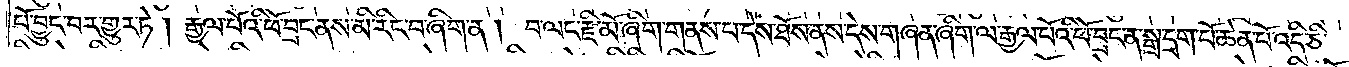པོ་བྱུང་བར་གྱུར་ཏེ། རྒྱལ་པོའི་ཕོ་བྲང་ནས་མི་རིང་བ་ཞིག་ན། བ་ལང་རྫི་མོ་ཞིག་གནས་པ་དེས་ཐོས་ནས་དེས་གཞན་ཞིག་ལ་རྒྱལ་པོའི་ཕོ་བྲང་ན་སྒྲ་དྲག་པོ་ཆེན་པོ་འདི་ཅི་
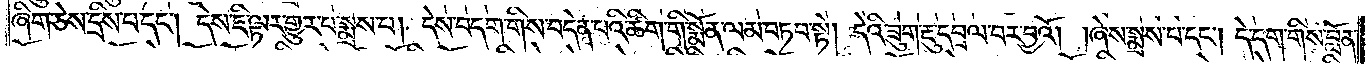ཞིག་ཅེས་དྲིས་པ་དང༌། དེས་ཇི་ལྟར་གྱུར་པ་སྨྲས་པ། དེས་བདག་གིས་བདེན་པའི་ཚིག་གི་སྨོན་ལམ་བཏབ་སྟེ། དེའི་ཟུག་རྔུ་དབྲལ་བར་བྱའོ། །ཞེས་སྨྲས་པ་དང༌། དེ་དག་གིས་བློན་
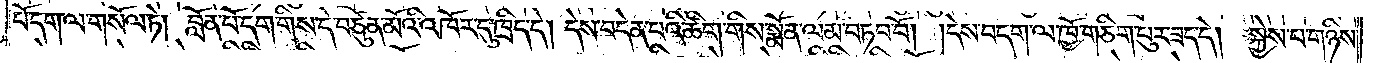པོ་དག་ལ་གསོལ་ཏེ། བློན་པོ་དག་གིས་དེ་བཙུན་མོའི་འཁོར་དུ་ཁྲིད་དེ། དེས་བདེན་པའི་ཚིག་གིས་སྨོན་ལམ་བཏབ་བོ། །དེས་བདག་ལ་ཁྱོ་གཅིག་པུར་ཟད་དེ། སྐྱེས་པ་གཉིས་
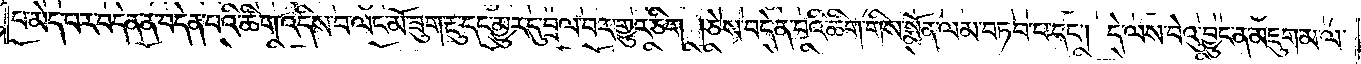པ་མེད་པར་བདེན་ན་བདེན་པའི་ཚིག་འདིས་བ་ལང་མོ་ཟུག་རྔུ་དང་མྱུར་དུ་བྲལ་བར་གྱུར་ཅིག །ཅེས་བདེན་པའི་ཚིག་གིས་སྨོན་ལམ་བཏབ་པ་དང༌། དེ་ལས་བེའུ་བྱུང་ན་མཇུག་མ་ལ་
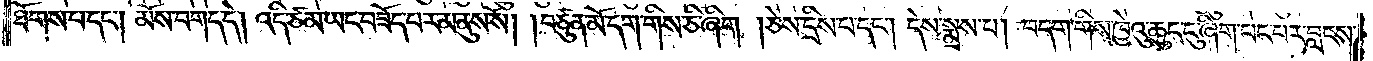ཐོགས་པ་དང༌། མོས་བགད་དེ། འདི་ཙམ་ཡང་བཟོད་པར་མ་ནུས་སོ། །བཙུན་མོ་དག་གིས་ཅི་ཞིག །ཅེས་དྲིས་པ་དང༌། དེས་སྨྲས་པ། བདག་གིས་ཁྱེའུ་ཆུང་ངུ་ཞིག་པང་བར་བླངས་
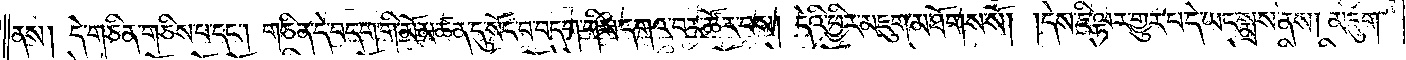ནས། དེ་གཅིན་གཅིས་པ་དང༌། གཅིན་དེ་བདག་གི་མོ་མཚན་དུ་སོང་བ་བདག་གིས་དགའ་བར་ཚོར་བས། དེའི་ཕྱིར་མཇུག་མ་ཐོགས་སོ། །དེས་ཇི་ལྟར་གྱུར་པ་དེ་ཡང་སྨྲས་ནས། མཇུག་
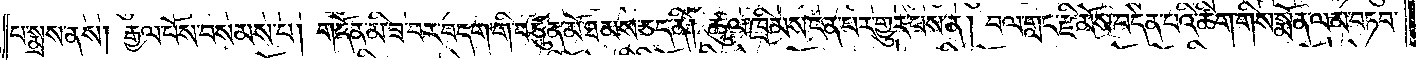པ་སྨྲས་ནས། རྒྱལ་པོས་བསམས་པ། གདོན་མི་ཟ་བར་བདག་གི་བཙུན་མོ་ཐམས་ཅད་ནི། ཚུལ་ཁྲིམས་ངན་པར་གྱུར་པས་ན། བལ་གླང་རྫི་མོས་བདེན་པའི་ཚིག་གིས་སྨོན་ལམ་བཏབ་
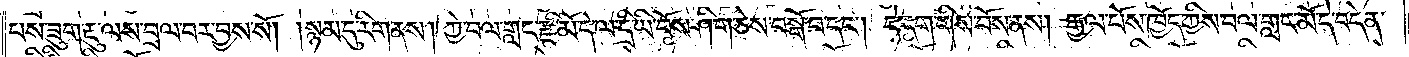པས་ཟུག་རྔུ་ལས་བྲལ་བར་བྱས་སོ། །སྙམ་དུ་རི་གནས། ཀྱེ་བལ་གླང་རྫི་མོ་དེ་ལ་དྲི་ཡི་བོས་ཤིག་ཅེས་བསྒོ་བ་དང༌། དེ་དག་གིས་བོས་ནས། རྒྱལ་པོས་ཁྱོད་ཀྱིས་བལ་གླང་མོ་དེ་བདེན་
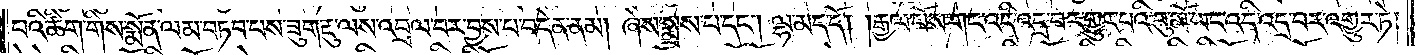པའི་ཚིག་གིས་སྨོན་ལམ་བཏབ་པས་ཟུག་རྔུ་ལས་འབྲལ་བར་བྱས་པ་བདེན་ནམ། ཞེས་སྨྲས་པ་དང༌། ལྷ་མད་དོ། །རྒྱལ་པོས་གང་འདི་འདྲ་བར་གྱུར་པའི་བུ་མོ་ཡང་འདི་འདྲ་བར་འགྱུར་ཏེ།
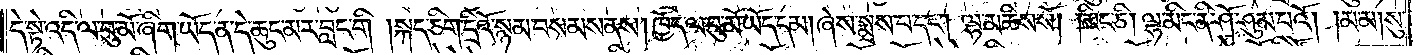དེ་སྟེ་འདི་ལ་བུ་མོ་ཞིག་ཡོད་ན་དེ་ཆུང་མར་བླང་གི །སྐད་ཅིག་དྲིའོ་སྙམ་བསམས་ནས། ཁྱོད་ལ་བུ་མོ་ཡོད་དམ། ཞེས་སྨྲས་པ་དང༌། ལྷ་མཆིས་སོ། །མིང་ཅི། ལྷ་མིང་ནི་ཤོ་ཤུམ་པའོ། །མ་མ། སུ་
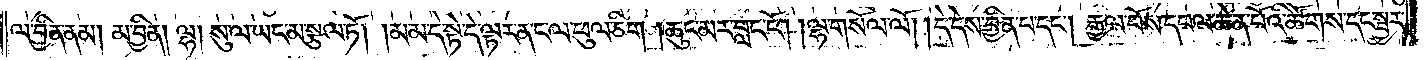ལ་བྱིན་ནམ། མ་བྱིན། ལྷ། སུ་ལ་ཡང་མ་སྩལ་ཏོ། །མ་མ་དེ་སྟེ་དེ་ལྟར་ན་ང་ལ་ཕུལ་ཅིག །ཆུང་མར་བླང་ངོ༌། །ལྷ་གསོལ་ལོ། །དེ་དེས་བྱིན་པ་དང༌། རྒྱལ་པོས་དཔལ་ཆེན་པོའི་ཚོགས་དང་སྦྱར་
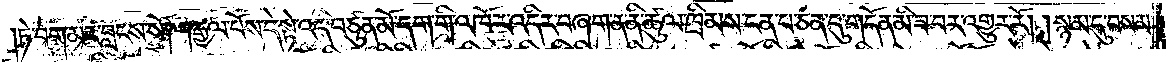ཏེ་བག་མར་བླངས་སོ། །རྒྱལ་པོས་དེ་སྟེ་འདི་བཙུན་མོ་དག་གི་འཁོར་འདིར་བཞག་ན་ནི་ཚུལ་ཁྲིམས་ངན་པ་ཅན་དུ་གདོན་མི་ཟ་བར་འགྱུར་རོ། །སྙམ་དུ་བསམ་
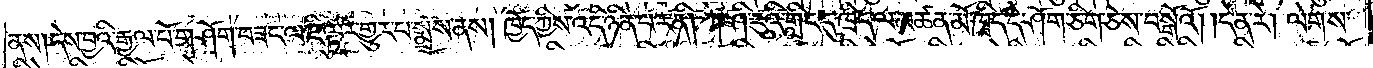ནས། དེས་བྱའི་རྒྱལ་པོ་གཤོག་བཟང་ལ་ཇི་ལྟར་གྱུར་པ་སྨྲས་ནས། ཁྱོད་ཀྱིས་འདི་ཉིན་པར་ནི། ཀ་ཤི་རུའི་གླིང་དུ་ཁྲིད་ལ་མཚན་མོ་ཁྲིད་དེ་ཤོག་ཅིག་ཅེས་བསྒོའོ། །དེ་ན་རེ། ལེགས་
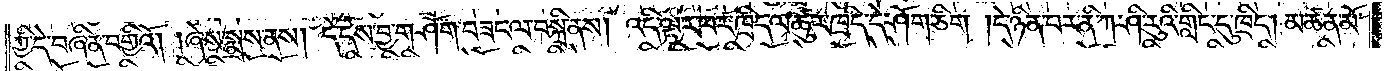ཀྱི་དེ་བཞིན་བགྱིའོ། །ཞེས་སྨྲས་ནས། དེ་དེས་བྱ་གཤོག་བཟང་ལ་བསྐྲི་ནས། འདི་ལྟར་ཕར་ཁྲིད་ལ་ཚུར་ཁྲིད་དེ་ཤོག་ཅིག །དེ་ཉིན་པར་ནི་ཀ་ཤི་རུའི་གླིང་དུ་ཁྲིད། མཚན་མོ་
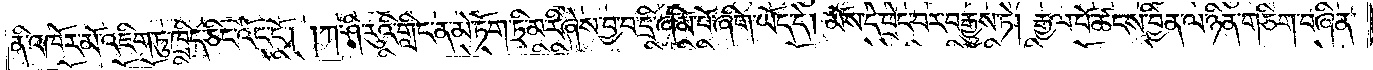ནི་འཁོར་མོ་འཇིག་ཏུ་ཁྲིད་ཅིང་འོང་ངོ༌། །ཀ་ཤི་རུའི་གླིང་ན་མེ་ཏོག་ཏྲི་མ་རི་ཞེས་བྱ་བ་དྲི་ཞིམ་པོ་ཞིག་ཡོད་དེ། མོས་དེ་ཕྲེང་བར་བརྒྱུས་ཏེ། རྒྱལ་པོ་ཚངས་བྱིན་ལ་ཉིན་གཅིག་བཞིན་
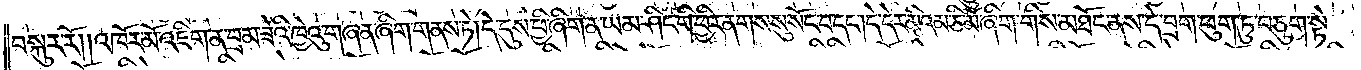བསྐུར་རོ༎འཁོར་མོ་འཇིག་ན་བྲམ་ཟེའི་ཁྱེའུ་གཞན་ཞིག་གནས་ཏེ། དེ་དུས་ཕྱི་ཞིག་ན་ཡམ་ཤིང་གི་ཕྱིར་ནགས་སུ་སོང་བ་དང༌། དེ་དེར་མིའམ་ཅི་མོ་ཞིག་གིས་མཐོང་ནས་དེ་བྲག་ཕུག་ཏུ་བཅུག་སྟེ་
